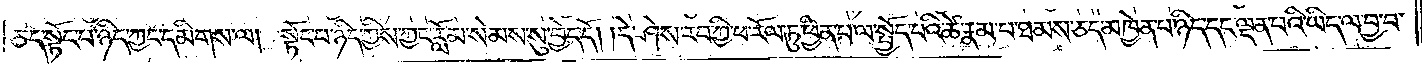ཅད་སྟོང་པ་ཉིད་ཀྱང་དམིགས་ལ། སྟོང་པ་ཉིད་ཀྱིས་ཀྱང་རློམ་སེམས་སུ་བྱེད་དོ། །དེ་ཤེས་རབ་ཀྱི་ཕ་རོལ་ཏུ་ཕྱིན་པ་ལ་སྤྱོད་པའི་ཚེ་རྣམ་པ་ཐམས་ཅད་མཁྱེན་པ་ཉིད་དང་ལྡན་པའི་ཡིད་ལ་བྱ་བ་
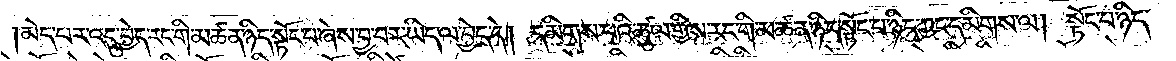མེད་པར་འདུ་བྱེད་རང་གི་མཚན་ཉིད་སྟོང་པ་ཞེས་བྱ་བར་ཡིད་ལ་བྱེད་དེ། དམིགས་པའི་ཚུལ་གྱིས་རང་གི་མཚན་ཉིད་སྟོང་པ་ཉིད་ཀྱང་དམིགས་ལ། སྟོང་པ་ཉིད་
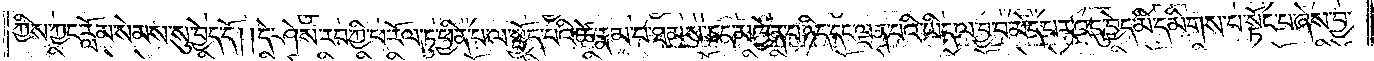ཀྱིས་ཀྱང་རློམ་སེམས་སུ་བྱེད་དོ། །དེ་ཤེས་རབ་ཀྱི་ཕ་རོལ་ཏུ་ཕྱིན་པ་ལ་སྤྱོད་པའི་ཚེ་རྣམ་པ་ཐམས་ཅད་མཁྱེན་པ་ཉིད་དང་ལྡན་པའི་ཡིད་ལ་བྱ་བ་མེད་པར་འདུ་བྱེད་མི་དམིགས་པ་སྟོང་པ་ཞེས་བྱ་
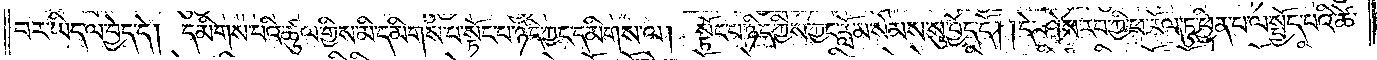བར་ཡིད་ལ་བྱེད་དེ། དམིགས་པའི་ཚུལ་གྱིས་མི་དམིགས་པ་སྟོང་པ་ཉིད་ཀྱང་དམིགས་ལ། སྟོང་པ་ཉིད་ཀྱིས་ཀྱང་རློམ་སེམས་སུ་བྱེད་དོ། །དེ་ཤེས་རབ་ཀྱི་ཕ་རོལ་ཏུ་ཕྱིན་པ་ལ་སྤྱོད་པའི་ཚེ་
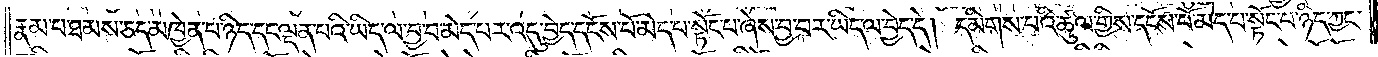རྣམ་པ་ཐམས་ཅད་མཁྱེན་པ་ཉིད་དང་ལྡན་པའི་ཡིད་ལ་བྱ་བ་མེད་པར་འདུ་བྱེད་དངོས་པོ་མེད་པ་སྟོང་པ་ཞེས་བྱ་བར་ཡིད་ལ་བྱེད་དེ། དམིགས་པའི་ཚུལ་གྱིས་དངོས་པོ་མེད་པ་སྟོང་པ་ཉིད་ཀྱང་
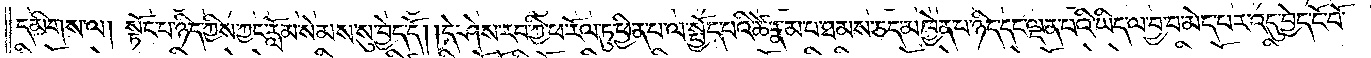དམིགས་ལ། སྟོང་པ་ཉིད་ཀྱིས་ཀྱང་རློམ་སེམས་སུ་བྱེད་དོ། །དེ་ཤེས་རབ་ཀྱི་ཕ་རོལ་ཏུ་ཕྱིན་པ་ལ་སྤྱོད་པའི་ཚེ་རྣམ་པ་ཐམས་ཅད་མཁྱེན་པ་ཉིད་དང་ལྡན་པའི་ཡིད་ལ་བྱ་བ་མེད་པར་འདུ་བྱེད་ངོ་བོ་
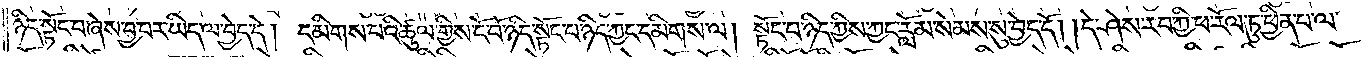ཉིད་སྟོང་པ་ཞེས་བྱ་བར་ཡིད་ལ་བྱེད་དེ། དམིགས་པའི་ཚུལ་གྱིས་ངོ་བོ་ཉིད་སྟོང་པ་ཉིད་ཀྱང་དམིགས་ལ། སྟོང་པ་ཉིད་ཀྱིས་ཀྱང་རློམ་སེམས་སུ་བྱེད་དོ། །དེ་ཤེས་རབ་ཀྱི་ཕ་རོལ་ཏུ་ཕྱིན་པ་ལ་
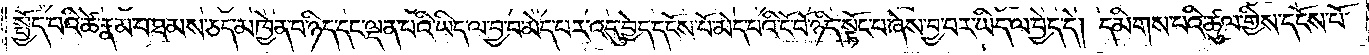སྤྱོད་པའི་ཚེ་རྣམ་པ་ཐམས་ཅད་མཁྱེན་པ་ཉིད་དང་ལྡན་པའི་ཡིད་ལ་བྱ་བ་མེད་པར་འདུ་བྱེད་དངོས་པོ་མེད་པའི་ངོ་བོ་ཉིད་སྟོང་པ་ཞེས་བྱ་བར་ཡིད་ལ་བྱེད་དེ། དམིགས་པའི་ཚུལ་གྱིས་དངོས་པོ་
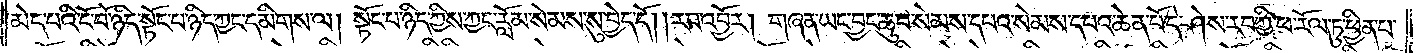མེད་པའི་ངོ་བོ་ཉིད་སྟོང་པ་ཉིད་ཀྱང་དམིགས་ལ། སྟོང་པ་ཉིད་ཀྱིས་ཀྱང་རློམ་སེམས་སུ་བྱེད་དོ། །རབ་འབྱོར། གཞན་ཡང་བྱང་ཆུབ་སེམས་དཔའ་སེམས་དཔའ་ཆེན་པོ་དེ་ཤེས་རབ་ཀྱི་ཕ་རོལ་ཏུ་ཕྱིན་པ་
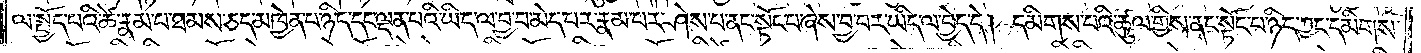ལ་སྤྱོད་པའི་ཚེ་རྣམ་པ་ཐམས་ཅད་མཁྱེན་པ་ཉིད་དང་ལྡན་པའི་ཡིད་ལ་བྱ་བ་མེད་པར་རྣམ་པར་ཤེས་པ་ནང་སྟོང་པ་ཞེས་བྱ་བར་ཡིད་ལ་བྱེད་དེ། དམིགས་པའི་ཚུལ་གྱིས་ནང་སྟོང་པ་ཉིད་ཀྱང་དམིགས་
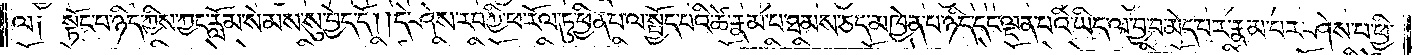ལ༑ སྟོང་པ་ཉིད་ཀྱིས་ཀྱང་རློམ་སེམས་སུ་བྱེད་དོ། །དེ་ཤེས་རབ་ཀྱི་ཕ་རོལ་ཏུ་ཕྱིན་པ་ལ་སྤྱོད་པའི་ཚེ་རྣམ་པ་ཐམས་ཅད་མཁྱེན་པ་ཉིད་དང་ལྡན་པའི་ཡིད་ལ་བྱ་བ་མེད་པར་རྣམ་པར་ཤེས་པ་ཕྱི་
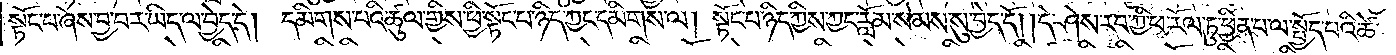སྟོང་པ་ཞེས་བྱ་བར་ཡིད་ལ་བྱེད་དེ། དམིགས་པའི་ཚུལ་གྱིས་ཕྱི་སྟོང་པ་ཉིད་ཀྱིས་ཀྱང་དམིགས་ལ། སྟོང་པ་ཉིད་ཀྱིས་ཀྱང་རློམ་སེམས་སུ་བྱེད་དོ། །དེ་ཤེས་རབ་ཀྱི་ཕ་རོལ་ཏུ་ཕྱིན་པ་ལ་སྤྱོད་པའི་ཚེ་
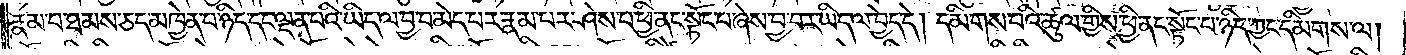རྣམ་པ་ཐམས་ཅད་མཁྱེན་པ་ཉིད་དང་ལྡན་པའི་ཡིད་ལ་བྱ་བ་མེད་པར་རྣམ་པར་ཤེས་པ་ཕྱི་ནང་སྟོང་པ་ཞེས་བྱ་བར་ཡིད་ལ་བྱེད་དེ། དམིགས་པའི་ཚུལ་གྱིས་ཕྱི་ནང་སྟོང་པ་ཉིད་ཀྱང་དམིགས་ལ།
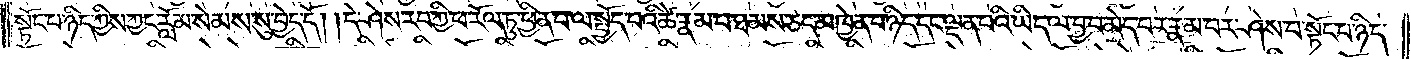སྟོང་པ་ཉིད་ཀྱིས་ཀྱང་རློམ་སེམས་སུ་བྱེད་དོ། །དེ་ཤེས་རབ་ཀྱི་ཕ་རོལ་ཏུ་ཕྱིན་པ་ལ་སྤྱོད་པའི་ཚེ་རྣམ་པ་ཐམས་ཅད་མཁྱེན་པ་ཉིད་དང་ལྡན་པའི་ཡིད་ལ་བྱ་བ་མེད་པར་རྣམ་པར་ཤེས་པ་སྟོང་པ་ཉིད་
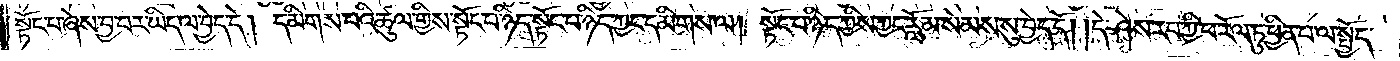སྟོང་པ་ཞེས་བྱ་བར་ཡིད་ལ་བྱེད་དེ། དམིགས་པའི་ཚུལ་གྱིས་སྟོང་པ་ཉིད་སྟོང་པ་ཉིད་ཀྱང་དམིགས་ལ། སྟོང་པ་ཉིད་ཀྱིས་ཀྱང་རློམ་སེམས་སུ་བྱེད་དོ། །དེ་ཤེས་རབ་ཀྱི་ཕ་རོལ་ཏུ་ཕྱིན་པ་ལ་སྤྱོད་
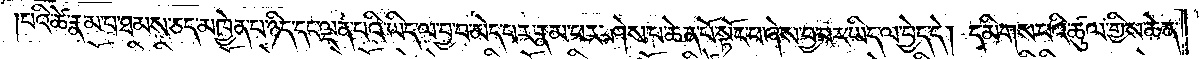པའི་ཚེ་རྣམ་པ་ཐམས་ཅད་མཁྱེན་པ་ཉིད་དང་ལྡན་པའི་ཡིད་ལ་བྱ་བ་མེད་པར་རྣམ་པར་ཤེས་པ་ཆེན་པོ་སྟོང་པ་ཞེས་བྱ་བར་ཡིད་ལ་བྱེད་དེ། དམིགས་པའི་ཚུལ་གྱིས་ཆེན་
